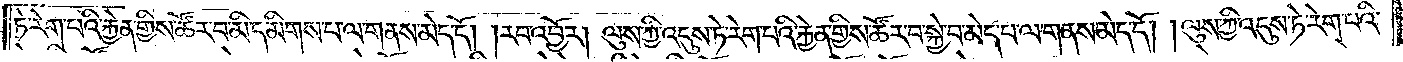ཏེ་རེག་པའི་རྐྱེན་གྱིས་ཚོར་བ་མི་དམིགས་པ་ལ་གནས་མེད་དོ། རབ་འབྱོར། ལུས་ཀྱི་འདུས་ཏེ་རེག་པའི་རྐྱེན་གྱིས་ཚོར་བ་སྐྱེ་བ་མེད་པ་ལ་གནས་མེད་དོ། །ལུས་ཀྱི་འདུས་ཏེ་རེག་པའི་
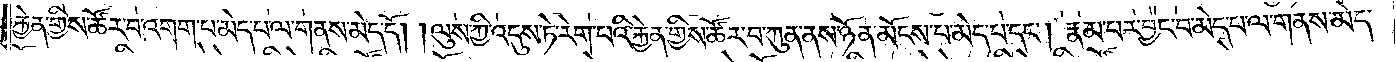རྐྱེན་གྱིས་ཚོར་བ་འགག་པ་མེད་པ་ལ་གནས་མེད་དོ། །ལུས་ཀྱི་འདུས་ཏེ་རེག་པའི་རྐྱེན་གྱིས་ཚོར་བ་ཀུན་ནས་ཉོན་མོངས་པ་མེད་པ་དང༌། རྣམ་པར་བྱང་བ་མེད་པ་ལ་གནས་མེད་
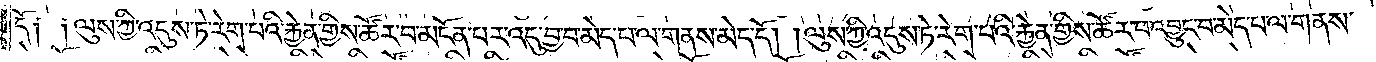དོ། །ལུས་ཀྱི་འདུས་ཏེ་རེག་པའི་རྐྱེན་གྱིས་ཚོར་བ་མངོན་པར་འདུ་བྱ་བ་མེད་པ་ལ་གནས་མེད་དོ། །ལུས་ཀྱི་འདུས་ཏེ་རེག་པའི་རྐྱེན་གྱིས་ཚོར་བ་འབྱུང་བ་མེད་པ་ལ་གནས་
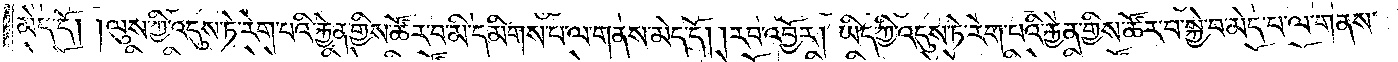མེད་དོ། །ལུས་ཀྱི་འདུས་ཏེ་རེག་པའི་རྐྱེན་གྱིས་ཚོར་བ་མི་དམིགས་པ་ལ་གནས་མེད་དོ། །རབ་འབྱོར། ཡིད་ཀྱི་འདུས་ཏེ་རེག་པའི་རྐྱེན་གྱིས་ཚོར་བ་སྐྱེ་བ་མེད་པ་ལ་གནས་
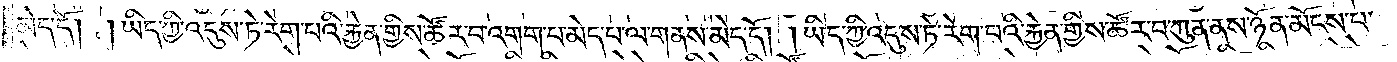མེད་དོ། །ཡིད་ཀྱི་འདུས་ཏེ་རེག་པའི་རྐྱེན་གྱིས་ཚོར་བ་འགག་པ་མེད་པ་ལ་གནས་མེད་དོ། །ཡིད་ཀྱི་འདུས་ཏེ་རེག་པའི་རྐྱེན་གྱིས་ཚོར་བ་ཀུན་ནས་ཉོན་མོངས་པ་
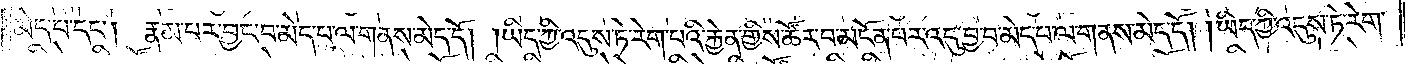མེད་པ་དང༌། རྣམ་པར་བྱང་བ་མེད་པ་ལ་གནས་མེད་དོ། །ཡིད་ཀྱི་འདུས་ཏེ་རེག་པའི་རྐྱེན་གྱིས་ཚོར་བ་མངོན་པར་འདུ་བྱ་བ་མེད་པ་ལ་གནས་མེད་དོ། །ཡིད་ཀྱི་འདུས་ཏེ་རེག་
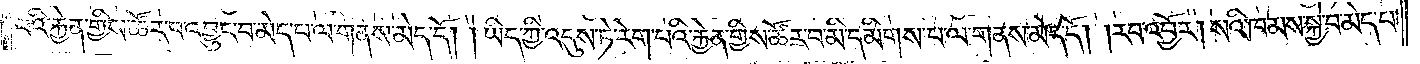པའི་རྐྱེན་གྱིས་ཚོར་བ་འབྱུང་བ་མེད་པ་ལ་གནས་མེད་དོ། །ཡིད་ཀྱི་འདུས་ཏེ་རེག་པའི་རྐྱེན་གྱིས་ཚོར་བ་མི་དམིགས་པ་ལ་གནས་མེད་དོ། །རབ་འབྱོར། སའི་ཁམས་སྐྱེ་བ་མེད་པ་
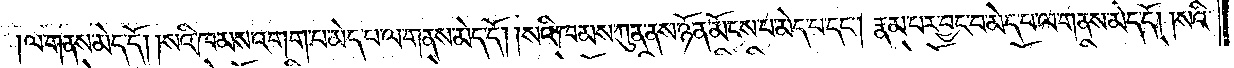ལ་གནས་མེད་དོ། །སའི་ཁམས་འགག་པ་མེད་པ་ལ་གནས་མེད་དོ། །སའི་ཁམས་ཀུན་ནས་ཉོན་མོངས་པ་མེད་པ་དང༌། རྣམ་པར་བྱང་བ་མེད་པ་ལ་གནས་མེད་དོ། །སའི་
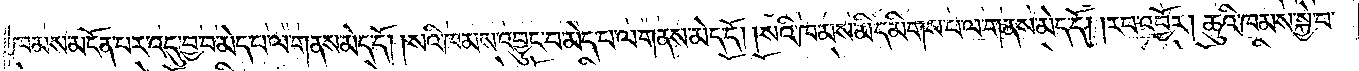ཁམས་མངོན་པར་འདུ་བྱ་བ་མེད་པ་ལ་གནས་མེད་དོ། །སའི་ཁམས་འབྱུང་བ་མེད་པ་ལ་གནས་མེད་དོ། །སའི་ཁམས་མི་དམིགས་པ་ལ་གནས་མེད་དོ། །རབ་འབྱོར། ཆུའི་ཁམས་སྐྱེ་བ་
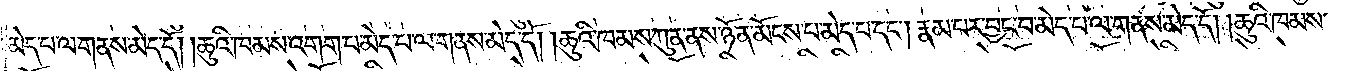མེད་པ་ལ་གནས་མེད་དོ། །ཆུའི་ཁམས་འགག་པ་མེད་པ་ལ་གནས་མེད་དོ། །ཆུའི་ཁམས་ཀུན་ནས་ཉོན་མོངས་པ་མེད་པ་དང༌། རྣམ་པར་བྱང་བ་མེད་པ་ལ་གནས་མེད་དོ། །ཆུའི་ཁམས་
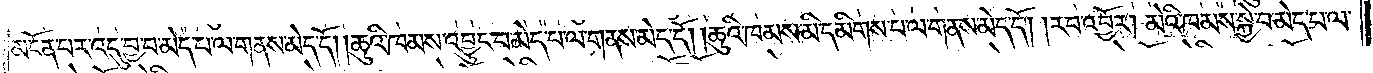མངོན་པར་འདུ་བྱ་བ་མེད་པ་ལ་གནས་མེད་དོ། །ཆུའི་ཁམས་འབྱུང་བ་མེད་པ་ལ་གནས་མེད་དོ། །ཆུའི་ཁམས་མི་དམིགས་པ་ལ་གནས་མེད་དོ། །རབ་འབྱོར། མེའི་ཁམས་སྐྱེ་བ་མེད་པ་ལ་
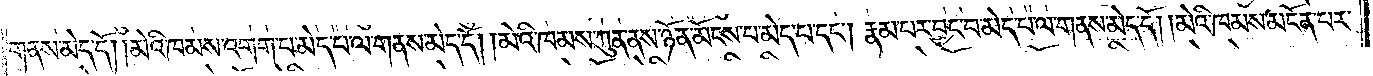གནས་མེད་དོ། །མེའི་ཁམས་འགག་པ་མེད་པ་ལ་གནས་མེད་དོ། །མེའི་ཁམས་ཀུན་ནས་ཉོན་མོངས་པ་མེད་པ་དང༌། རྣམ་པར་བྱང་བ་མེད་པ་ལ་གནས་མེད་དོ། །མེའི་ཁམས་མངོན་པར་
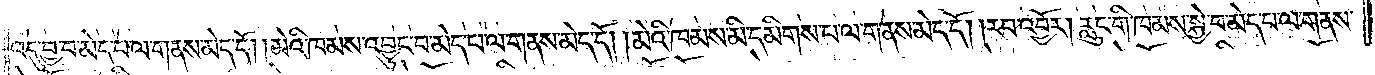འདུ་བྱ་བ་མེད་པ་ལ་གནས་མེད་དོ། །མེའི་ཁམས་འབྱུང་བ་མེད་པ་ལ་གནས་མེད་དོ། །མེའི་ཁམས་མི་དམིགས་པ་ལ་གནས་མེད་དོ། །རབ་འབྱོར། རླུང་གི་ཁམས་སྐྱེ་བ་མེད་པ་ལ་གནས་
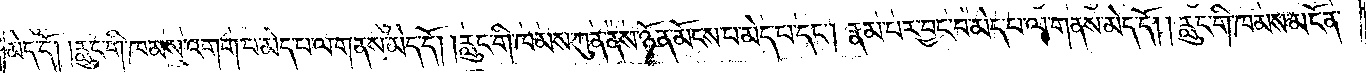མེད་དོ། །རླུང་གི་ཁམས་འགག་པ་མེད་པ་ལ་གནས་མེད་དོ། །རླུང་གི་ཁམས་ཀུན་ནས་ཉོན་མོངས་པ་མེད་པ་དང༌། རྣམ་པར་བྱང་བ་མེད་པ་ལ་གནས་མེད་དོ། །རླུང་གི་ཁམས་མངོན་
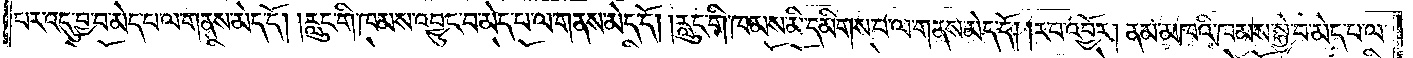པར་འདུ་བྱ་བ་མེད་པ་ལ་གནས་མེད་དོ། །རླུང་གི་ཁམས་འབྱུང་བ་མེད་པ་ལ་གནས་མེད་དོ། །རླུང་གི་ཁམས་མི་དམིགས་པ་ལ་གནས་མེད་དོ། །རབ་འབྱོར། ནམ་མཁའི་ཁམས་སྐྱེ་བ་མེད་པ་ལ་
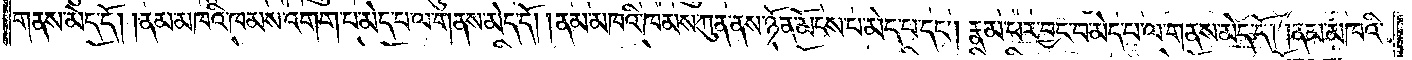གནས་མེད་དོ། །ནམ་མཁའི་ཁམས་འགག་པ་མེད་པ་ལ་གནས་མེད་དོ། །ནམ་མཁའི་ཁམས་ཀུན་ནས་ཉོན་མོངས་པ་མེད་པ་དང༌། རྣམ་པར་བྱང་བ་མེད་པ་ལ་གནས་མེད་དོ། །ནམ་མཁའི་
